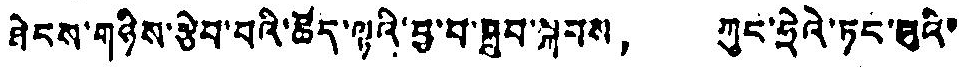ཐེངས་གཉིས་རྩེབ་པའི་ཚོད་ལྟའི་བྱ་བ་ཐུབ་སྐབས， ཀུང་ཧྲེའེ་ཏང་པུའི་
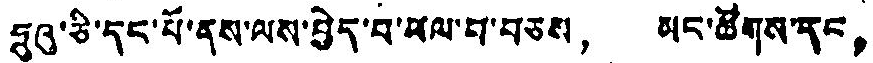ཧྲུའུ་ཅི་དང་པོ་ནས་ལས་བྱེད་པ་ཕལ་བ་བཅས， མང་ཚོགས་དང，
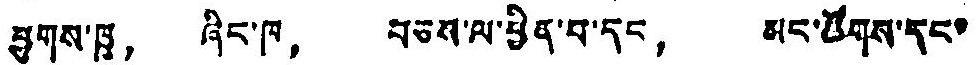ཕྱུགས་ཁྱུ， ཞིང་ཁ， བཅས་ལ་ཕྱིན་པ་དང， མང་ཚོགས་དང་
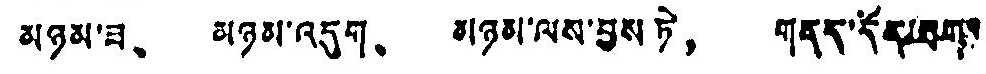མཉམ་ཟ、 མཉམ་འདུག、 མཉམ་ལས་བྱས ཏེ， གནད་དོན་ཐག་
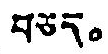བཅད。
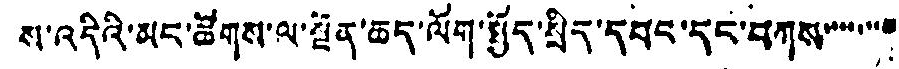ས་འདིའི་མང་ཚོགས་ལ་སྔོན་ཆད་ལོག་སྤྱོད་སྲིད་དབང་དང་བཀས་་་་་་་་་
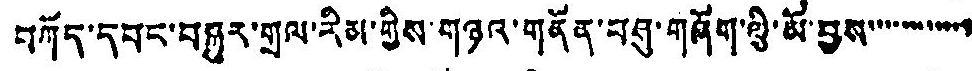བཀོད་དབང་བསྐུར་གྲལ་རིམ་གྱིས་གཉའ་གནོན་བཤུ་གཞོག་ཕྱི་མོ་བྱས་་་་་་་་་་་་
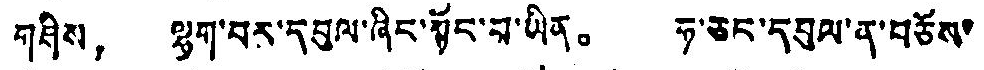གཤིས， ལྷག་པར་དབུལ་ཞིང་སྟོང་བ་ཡིན。 ཧ་ཅང་དབུལ་ན་བཅོས་
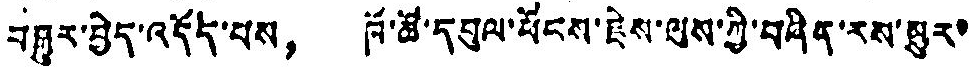བསྐུར་བྱེད་འདོད་པས， ཁོ་ཚོ་དབུལ་ཕོངས་རྗེས་ལུས་ཀྱི་བཞིན་རས་མྱུར་
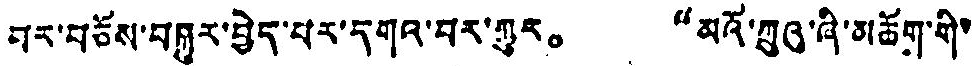པར་བཅོས་བསྐུར་བྱེད་པར་དགའ་བར་གྱུར。 “མའོ་ཀྲུའུ་ཞི་མཆོག་གི་
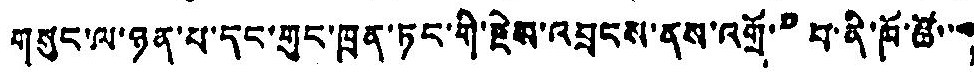གསུང་ལ་ཉན་པ་དང་གུང་ཁྲན་ཏང་གི་རྗེས་འབྲངས་ནས་འགྲོ་” བ་ནི་ཁོ་ཚོ་་་་
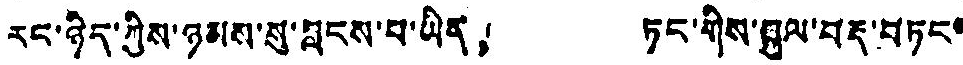རང་ཉིད་ཀྱིས་ཉམས་སུ་བླངས་པ་ཡིན， ཏང་གིས་སུལ་བརྡ་བཏང་
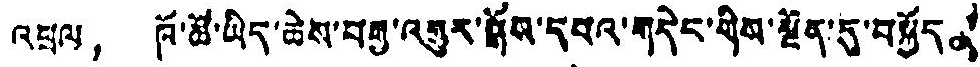འཕྲལ， ཁོ་ཚོ་ཡིད་ཆེས་བརྒྱ་འགྱུར་རྒོས་དཔའ་གདེང་གིས་སྔོན་དུ་བསྐྱོད。
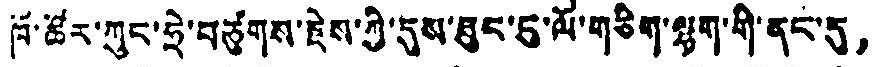ཁོ་ཚོར་ཀུང་ཧྲེ་བཙུགས་རྗེས་ཀྱི་དུས་ཐུང་ངུ་ལོ་གཅིག་ལྷག་གི་ནང་དུ，
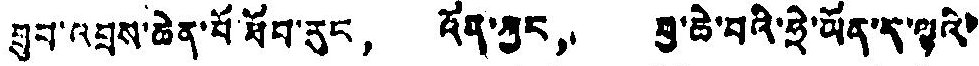གྲུབ་འབྲས་ཆེན་པོ་ཐོབ་རུང， འོན་ཀྱང， རྒྱ་ཆེ་བའི་ཧྲེ་ཡོན་ད་ལྟའི་
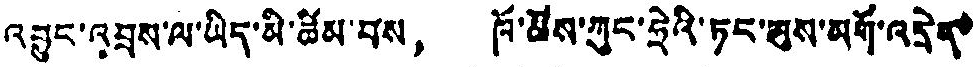འབྱུང་འབྲས་ལ་ཡིད་མི་ཚིམ་པས， ཁོ་ཚོས་ཀུང་ཧྲེའི་ཏང་མུས་མགོ་འདྲེན་
